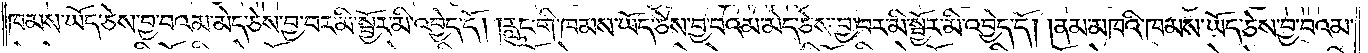ཁམས་ཡོད་ཅེས་བྱ་བའམ་མེད་ཅེས་བྱ་བར་མི་སྦྱོར་མི་འབྱེད་དོ། །རླུང་གི་ཁམས་ཡོད་ཅེས་བྱ་བའམ་མེད་ཅེས་བྱ་བར་མི་སྦྱོར་མི་འབྱེད་དོ། །ནམ་མཁའི་ཁམས་ཡོད་ཅེས་བྱ་བའམ་
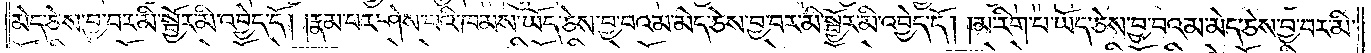མེད་ཅེས་བྱ་བར་མི་སྦྱོར་མི་འབྱེད་དོ། །རྣམ་པར་ཤེས་པའི་ཁམས་ཡོད་ཅེས་བྱ་བའམ་མེད་ཅེས་བྱ་བར་མི་སྦྱོར་མི་འབྱེད་དོ། །མ་རིག་པ་ཡོད་ཅེས་བྱ་བའམ་མེད་ཅེས་བྱ་བར་མི་
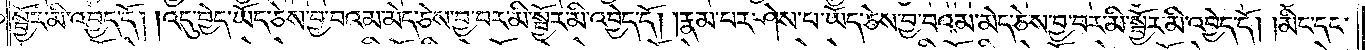སྦྱོར་མི་འབྱེད་དོ། །འདུ་བྱེད་ཡོད་ཅེས་བྱ་བའམ་མེད་ཅེས་བྱ་བར་མི་སྦྱོར་མི་འབྱེད་དོ། །རྣམ་པར་ཤེས་པ་ཡོད་ཅེས་བྱ་བའམ་མེད་ཅེས་བྱ་བར་མི་སྦྱོར་མི་འབྱེད་དོ། །མིང་དང་
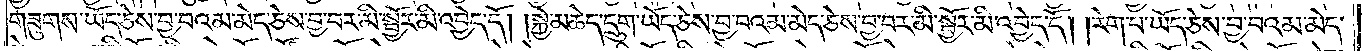གཟུགས་ཡོད་ཅེས་བྱ་བའམ་མེད་ཅེས་བྱ་བར་མི་སྦྱོར་མི་འབྱེད་དོ། །སྐྱེ་མཆེད་དྲུག་ཡོད་ཅེས་བྱ་བའམ་མེད་ཅེས་བྱ་བར་མི་སྦྱོར་མི་འབྱེད་དོ། །རེག་པ་ཡོད་ཅེས་བྱ་བའམ་མེད་
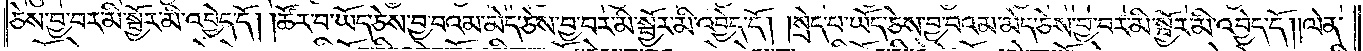ཅེས་བྱ་བར་མི་སྦྱོར་མི་འབྱེད་དོ། །ཚོར་བ་ཡོད་ཅེས་བྱ་བའམ་མེད་ཅེས་བྱ་བར་མི་སྦྱོར་མི་འབྱེད་དོ། །སྲེད་པ་ཡོད་ཅེས་བྱ་བའམ་མེད་ཅེས་བྱ་བར་མི་སྦྱོར་མི་འབྱེད་དོ། །ལེན་
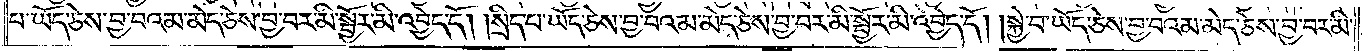པ་ཡོད་ཅེས་བྱ་བའམ་མེད་ཅེས་བྱ་བར་མི་སྦྱོར་མི་འབྱེད་དོ། །སྲིད་པ་ཡོད་ཅེས་བྱ་བའམ་མེད་ཅེས་བྱ་བར་མི་སྦྱོར་མི་འབྱེད་དོ། །སྐྱེ་བ་ཡོད་ཅེས་བྱ་བའམ་མེད་ཅེས་བྱ་བར་མི་
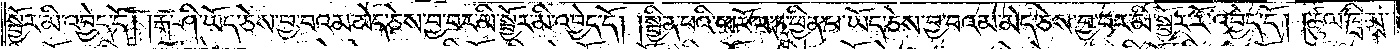སྦྱོར་མི་འབྱེད་དོ། །རྒ་ཤི་ཡོད་ཅེས་བྱ་བའམ་མེད་ཅེས་བྱ་བར་མི་སྦྱོར་མི་འབྱེད་དོ། །སྦྱིན་པའི་ཕ་རོལ་ཏུ་ཕྱིན་པ་ཡོད་ཅེས་བྱ་བའམ་མེད་ཅེས་བྱ་བར་མི་སྦྱོར་རོ་འབྱེད་དོ། །ཚུལ་ཁྲིམས་
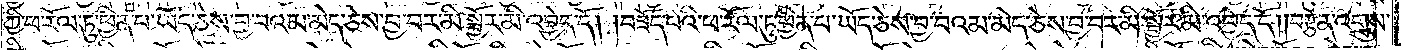ཀྱི་ཕ་རོལ་ཏུ་ཕྱིན་པ་ཡོད་ཅེས་བྱ་བའམ་མེད་ཅེས་བྱ་བར་མི་སྦྱོར་མི་འབྱེད་དོ། །བཟོད་པའི་ཕ་རོལ་ཏུ་ཕྱིན་པ་ཡོད་ཅེས་བྱ་བའམ་མེད་ཅེས་བྱ་བར་མི་སྦྱོར་མི་འབྱེད་དོ། །བརྩོན་འགྲུས་
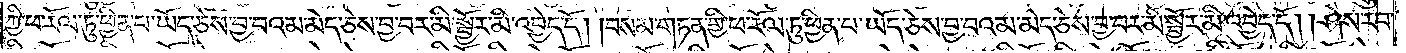ཀྱི་ཕ་རོལ་ཏུ་ཕྱིན་པ་ཡོད་ཅེས་བྱ་བའམ་མེད་ཅེས་བྱ་བར་མི་སྦྱོར་མི་འབྱེད་དོ། །བསམ་གཏན་གྱི་ཕ་རོལ་ཏུ་ཕྱིན་པ་ཡོད་ཅེས་བྱ་བའམ་མེད་ཅེས་བྱ་བར་མི་སྦྱོར་མི་འབྱེད་དོ། །ཤེས་རབ་
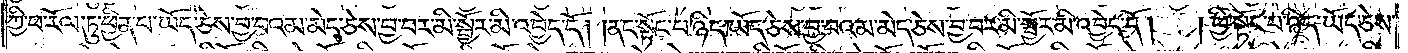ཀྱི་ཕ་རོལ་ཏུ་ཕྱིན་པ་ཡོད་ཅེས་བྱ་བའམ་མེད་ཅེས་བྱ་བར་མི་སྦྱོར་མི་འབྱེད་དོ། །ནང་སྟོང་པ་ཉིད་ཡོད་ཅེས་བྱ་བའམ་མེད་ཅེས་བྱ་བར་མི་སྦྱོར་མི་འབྱེད་དོ། །ཕྱི་སྟོང་པ་ཉིད་ཡོད་ཅེས་
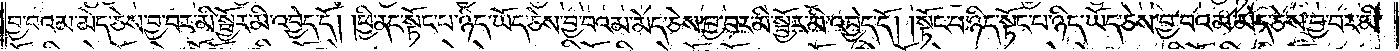བྱ་བའམ་མེད་ཅེས་བྱ་བར་མི་སྦྱོར་མི་འབྱེད་དོ། །ཕྱི་ནང་སྟོང་པ་ཉིད་ཡོད་ཅེས་བྱ་བའམ་མེད་ཅེས་བྱ་བར་མི་སྦྱོར་མི་འབྱེད་དོ། །སྟོང་པ་ཉིད་སྟོང་པ་ཉིད་ཡོད་ཅེས་བྱ་བའམ་མེད་ཅེས་བྱ་བར་མི་
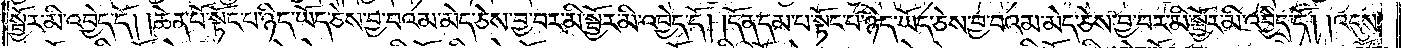སྦྱོར་མི་འབྱེད་དོ། །ཆེན་པོ་སྟོང་པ་ཉིད་ཡོད་ཅེས་བྱ་བའམ་མེད་ཅེས་བྱ་བར་མི་སྦྱོར་མི་འབྱེད་དོ། །དོན་དམ་པ་སྟོང་པ་ཉིད་ཡོད་ཅེས་བྱ་བའམ་མེད་ཅེས་བྱ་བར་མི་སྦྱོར་མི་འབྱེད་དོ། །འདུས་
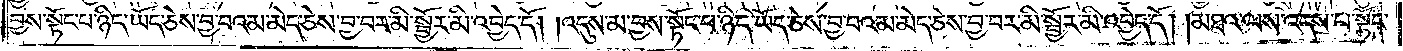བྱས་སྟོང་པ་ཉིད་ཡོད་ཅེས་བྱ་བའམ་མེད་ཅེས་བྱ་བར་མི་སྦྱོར་མི་འབྱེད་དོ། །འདུས་མ་བྱས་སྟོང་པ་ཉིད་ཡོད་ཅེས་བྱ་བའམ་མེད་ཅེས་བྱ་བར་མི་སྦྱོར་མི་འབྱེད་དོ། །མཐའ་ལས་འདས་པ་སྟོང་
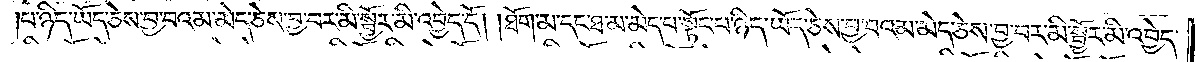པ་ཉིད་ཡོད་ཅེས་བྱ་བའམ་མེད་ཅེས་བྱ་བར་མི་སྦྱོར་མི་འབྱེད་དོ། །ཐོག་མ་དང་ཐ་མ་མེད་པ་སྟོང་པ་ཉིད་ཡོད་ཅེས་བྱ་བའམ་མེད་ཅེས་བྱ་བར་མི་སྦྱོར་མི་འབྱེད་
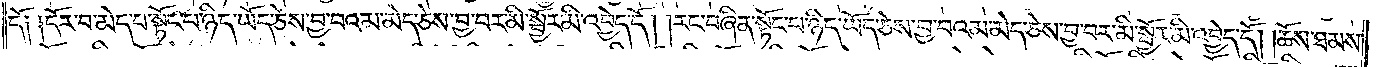དོ༑ ༑དོར་བ་མེད་པ་སྟོང་པ་ཉིད་ཡོད་ཅེས་བྱ་བའམ་མེད་ཅེས་བྱ་བར་མི་སྦྱོར་མི་འབྱེད་དོ། །རང་བཞིན་སྟོང་པ་ཉིད་ཡོད་ཅེས་བྱ་བའམ་མེད་ཅེས་བྱ་བར་མི་སྦྱོར་མི་འབྱེད་དོ། །ཆོས་ཐམས་
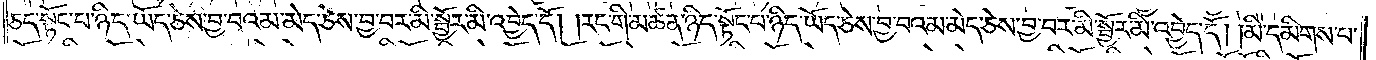ཅད་སྟོང་པ་ཉིད་ཡོད་ཅེས་བྱ་བའམ་མེད་ཅེས་བྱ་བར་མི་སྦྱོར་མི་འབྱེད་དོ། །རང་གི་མཚན་ཉིད་སྟོང་པ་ཉིད་ཡོད་ཅེས་བྱ་བའམ་མེད་ཅེས་བྱ་བར་མི་སྦྱོར་མི་འབྱེད་དོ། །མི་དམིགས་པ་
